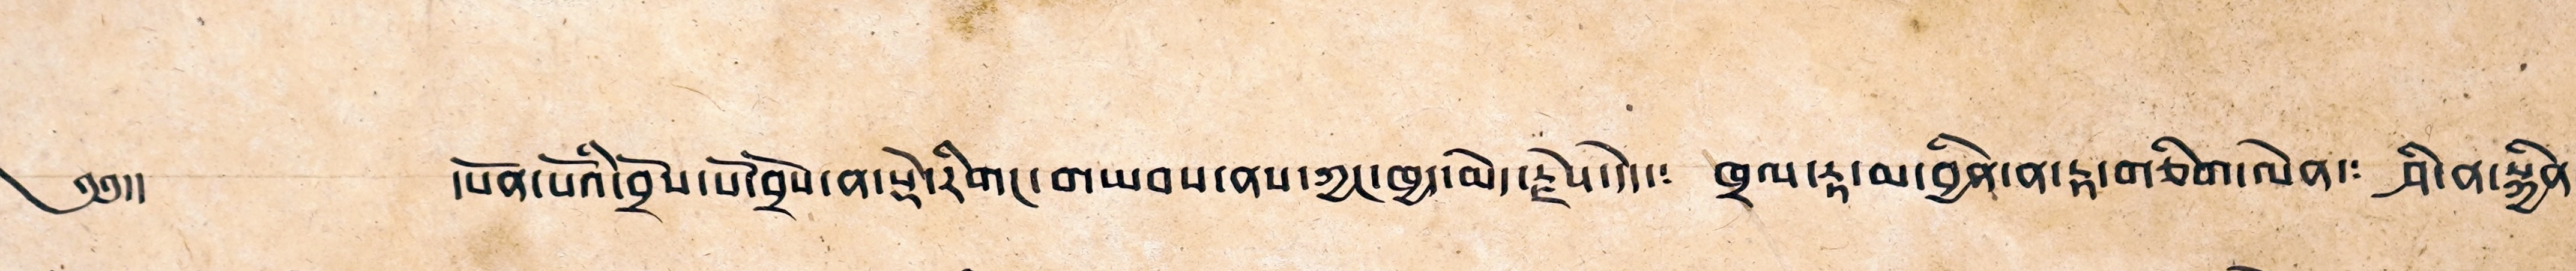༄༅།། དཔོན་པོའི་བྲོས་པོ་བྲོས་ན་སྡེ་རིགང་གཡབས་ནས་ཀྱང་ཁྱད་མེ་རྗེས་དེད་༴ ཁྲལ་རྟ་མ་བྱིན་ན་རྟ་གཅིག་ལེན་༴ ཤི་ན་སྐྱིན་
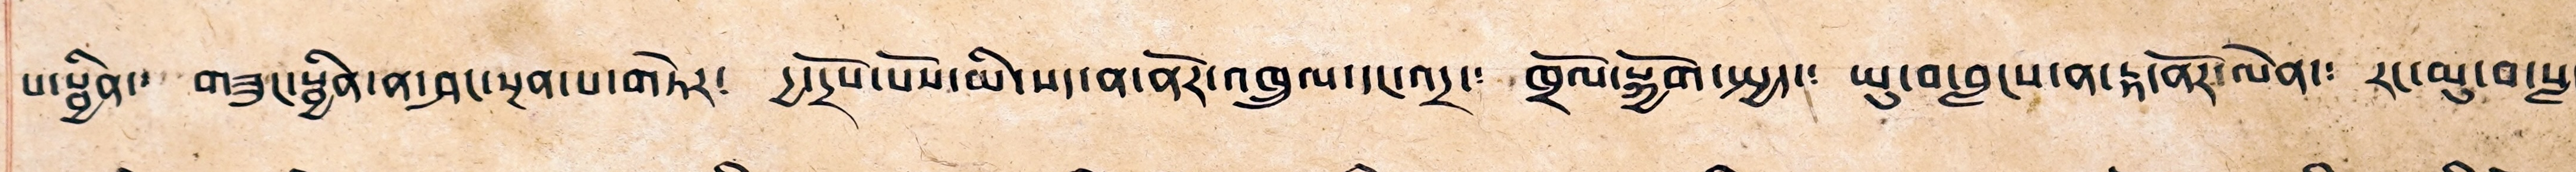པ་སྦྱིན་༴ གཟུང་སྦྱིན་ན་ཤང་སྔན་པ་གཏེར། དྱ་དྲོས་པོས་མི་སད་ན་ནོར་འཁྲུལ་དང་འདྲ་༴ ཁྲོལ་སྐྱོག་སྤྱད་༴ ཡུ་བ་བླངས་ན་རྟ་ནོར་ལེན་༴ རང་མུ་བ་སླང་
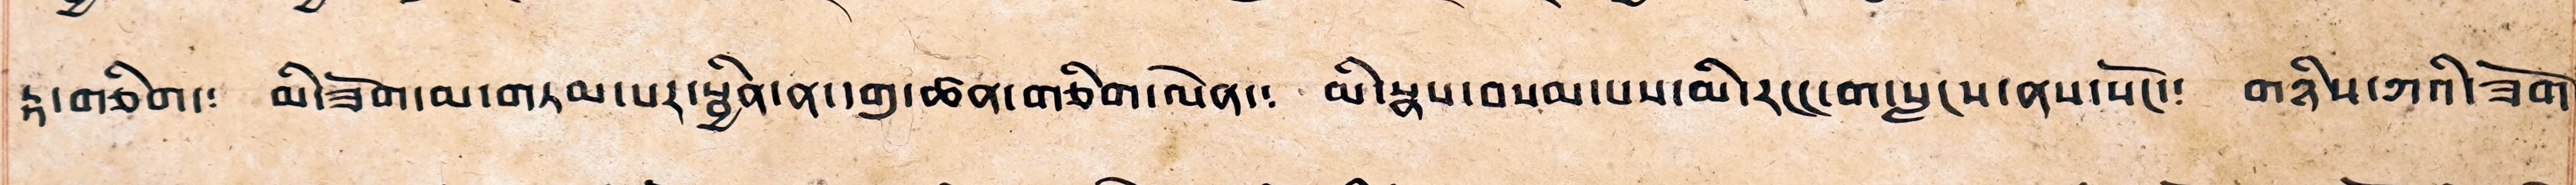རྟ་གཅིག་༴ མི་ཟོག་མ་གཏམ་པར་སྦྱིན་ན་དགུ་ཚན་གཅིག་ལེན་༴ མི་སྣས་བསམ་པས་མི་རང་དག་སླངས་ནས་སོང་༴ གཉིས་ཀའི་ཟོག་
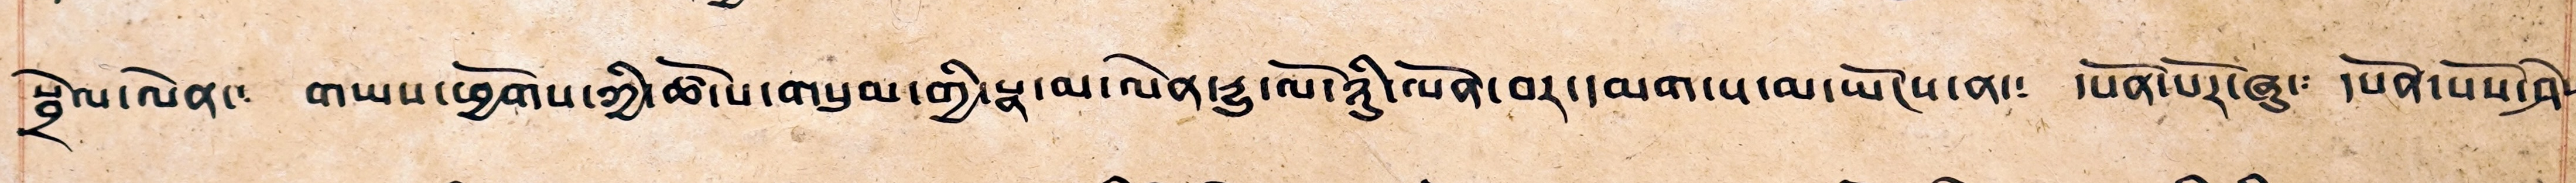སྦྲེལ་ལེན་༴ གཡས་ཕྱོགས་ཀྱི་ཚེ་པ་གསུམ་གྱི་སྣ་མ་ལེན་རྒྱུ་ལོ་ཉིུ་ལོན་བར་དམག་པ་མ་ཡོངས་ན་༴ དཔོན་པོར་ཞུ་༴ དཔོན་པོས་ཤེས༴
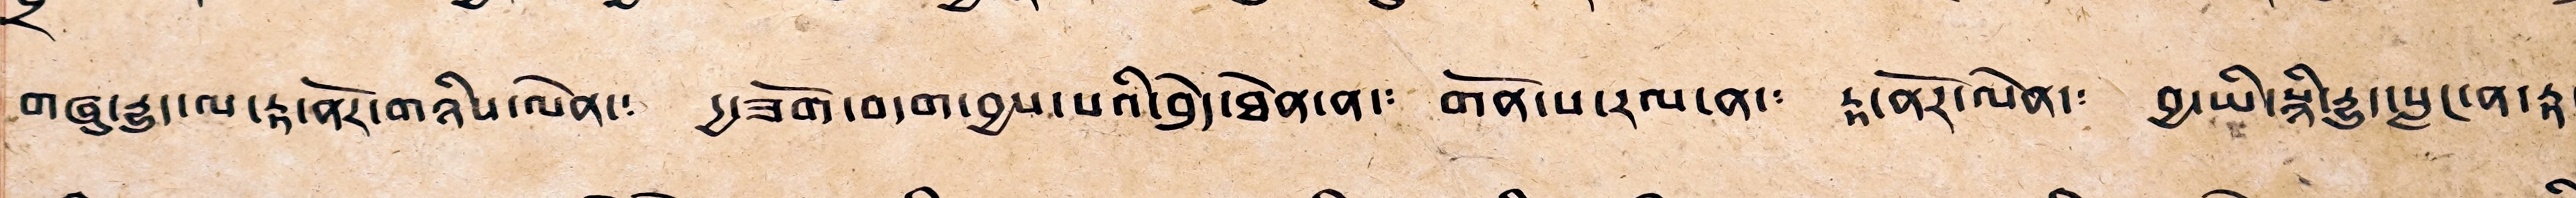གཞུ་རྒྱུད་ལ་རྟ་ནོར་གཉིས་ལེན་༴ དྱ་ཟོག་བདག་བྱས་པའི་བྱེད་ཐོན་ན་༴ གོན་པ་རལ་ན་༴ རྟ་ནོར་ལེན་༴ བྱ་ཡི་སྙི་རྒྱུ་སླང་ན་རྟ་
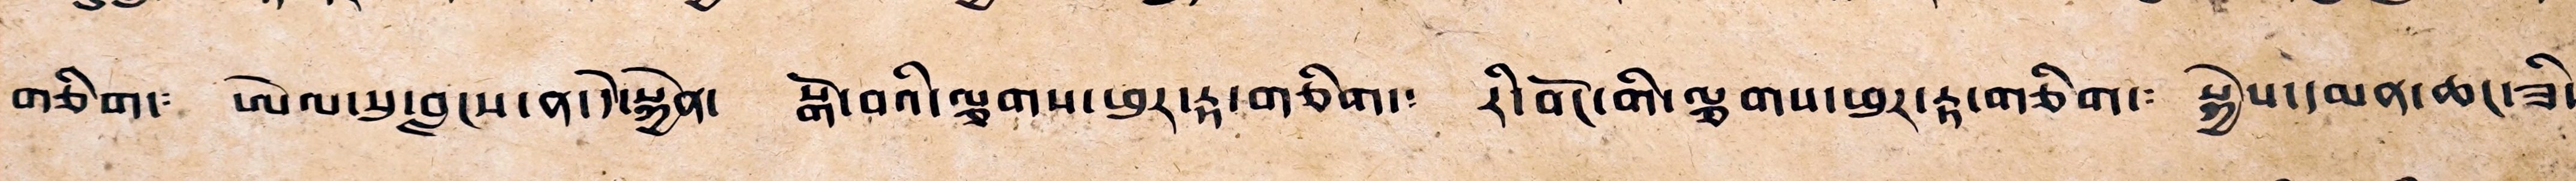གཅིག་༴ ཨེལ་སུ་བླངས་ན་དེ་སྐྱེན། སྒོ་བའི་ལྕགས་ཕྱར་རྟ་གཅིག་༴ རི་བོང་གི་ལྕགས་ཕར་རྟ་གཅིག་༴ སྐྱེས་དམན་ཆང་ཟིས༴
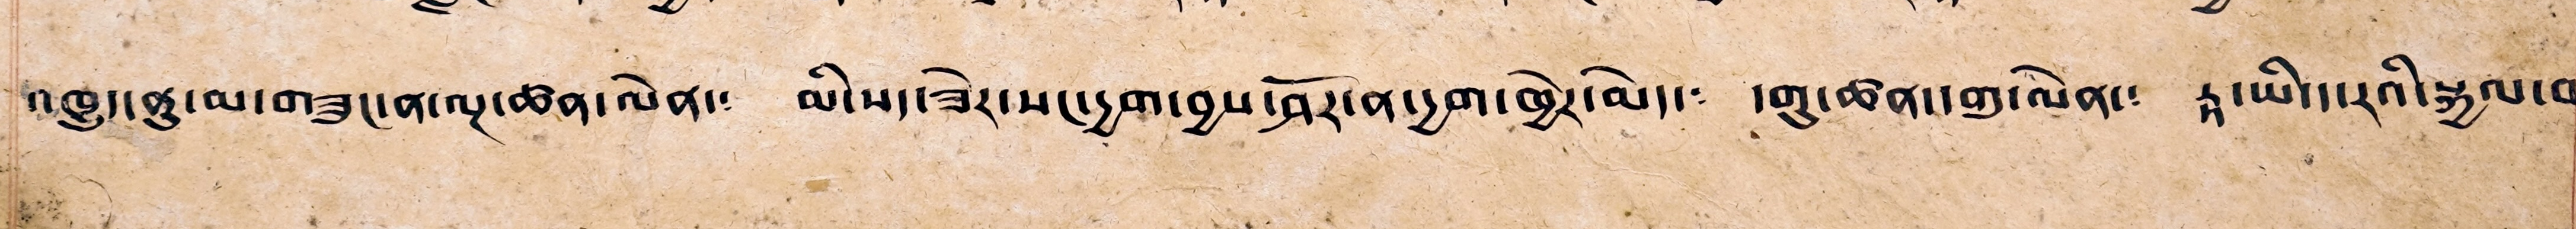འཁྱུད་ནུ་མ་གཟུང་ན་ལྔ་ཚན་ལེན་༴ མི་སད་ཟེར་སང་དྱག་བྱས་ཤོར་ན་དྱག་ཁྱེར་མེད་༴ དགུ་ཚན་དགུ་ལེན་༴ རྟ་ཡི་ད་རའི་སྐྱལ་བ
